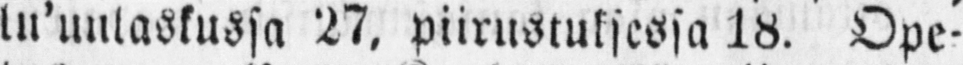lu'unlaskussa 27. piirustuksessa 18. Ope-
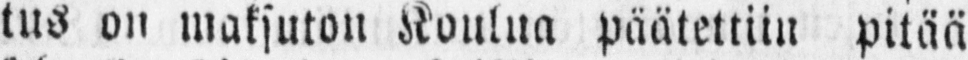tus on maksuton Koulua päätettiin pitää
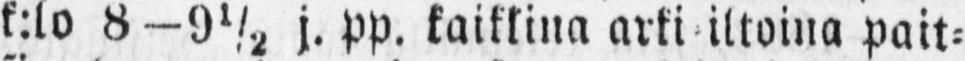k:lo 8—9½ j. pp. kaikkina arki iltoina pait-
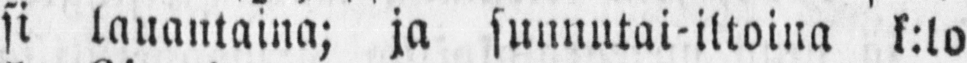si lauantaina; ja sunnutai-iltoina k:lo
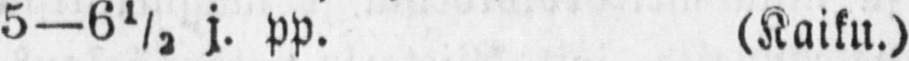5—6½ j. pp. (Kaiku.)
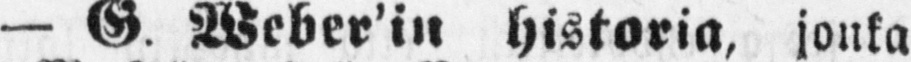— G Weber'in, historia, jonka
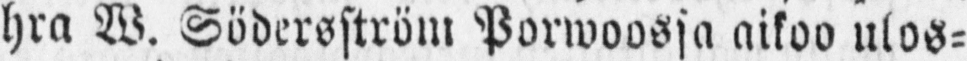hra W. Södersström Porwoossa aikoo ulos-
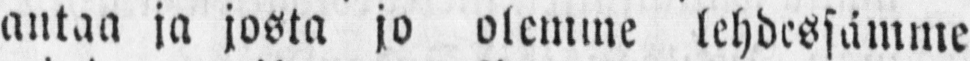antaa ja josta jo olemme lehdessämme
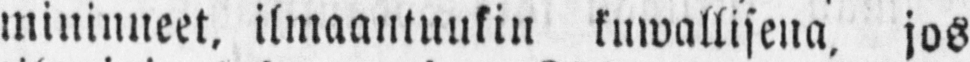mininneet, ilmaantuukin kuwallisena, jos
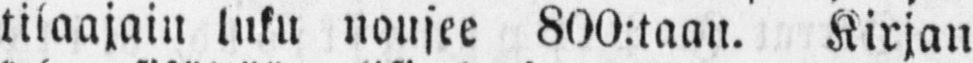tilaajain luku nousee 800:taan. Kirjan
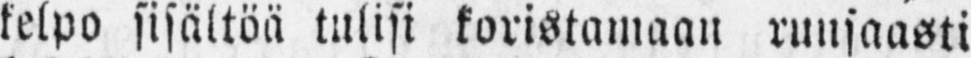kelpo sisältöä tulisi koristamaan runsaasti
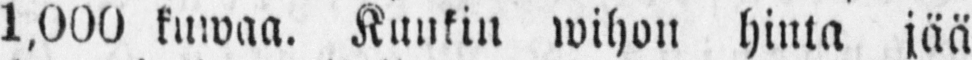1,000 kuwaa. Kuukin wihon hinta jää
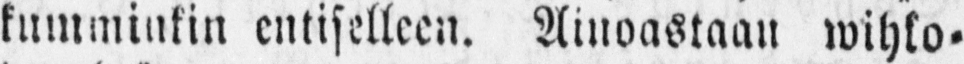kummiukin entiselleen. Ainoastaan wihko-
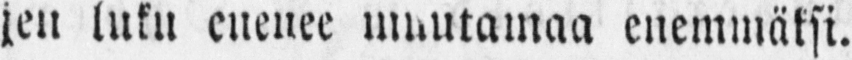jen luku enenee muutamaa enemmäksi.
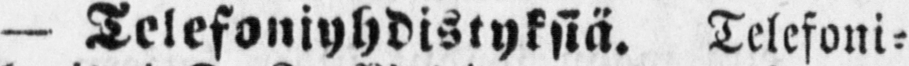— Telefoniyhdistyksiä. Telefoni-
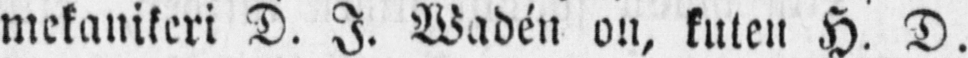mekanikeri D. I. Wadén on, kuten H. D.
